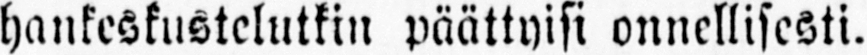hankeskustelutkin päättyisi onnellisesti.
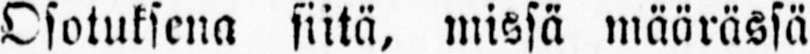Osotuksena siitä, missä määrässä
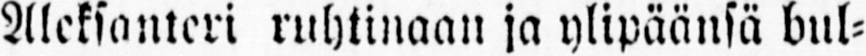Aleksanteri ruhtinaan ja ylipäänsä bul-
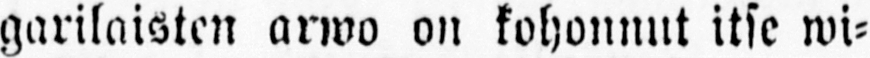garilaisten arwo on kohonnut itse wi-
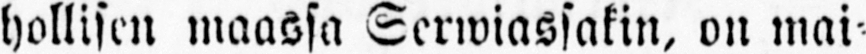hollisen maassa Serwiassnkin, on mai-
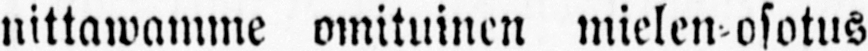nittawamme omituinen mielen-osotus
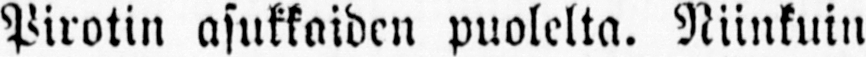Pirotin asukkaiden puolelta. Niinkuin
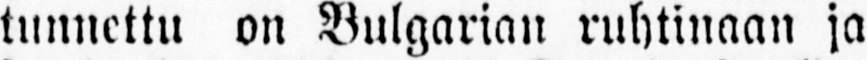tunnettu on Bulgarian ruhtinaan ja
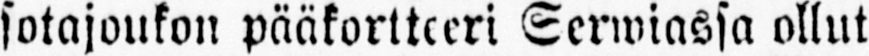sotajoukon pääkortteeri Serwiassa ollut
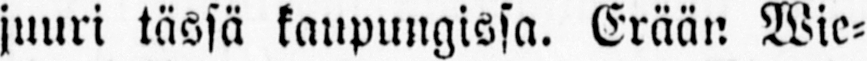juuri tässä kaupungissa. Erään Wie-
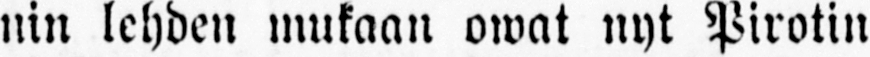nin lehden mukaan owat nyt Pirotin
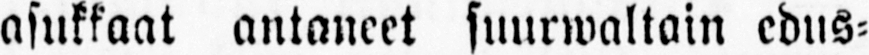asukkaat antaneet suurwaltoin edus-
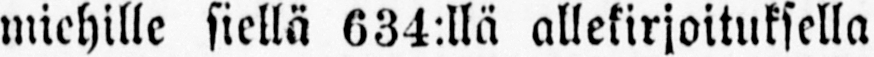miehille siellä 634:llä allekirjoituksella
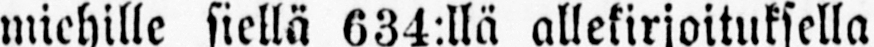warustetun anomuskirjoituksen, jossa
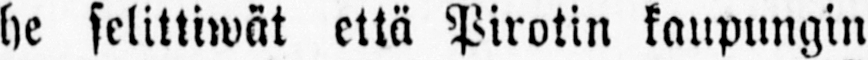he selittiwät että Pirotin kaupungin
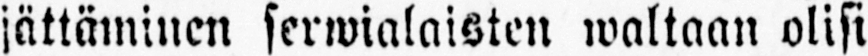jättäminen serwialaisten waltaan olisi
